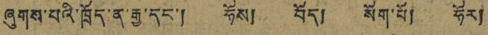ཞུགས་པའི་ཁྲོད་ན་རྒྱ་དང་། ཧོས། བོད། སོག་པོ། ཧོར།
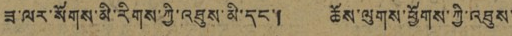ཟ་ལར་སོགས་མི་རིགས་ཀྱི་འཐུས་མི་དང་། ཆོས་ལུགས་ཕྱོགས་ཀྱི་འཐུས་
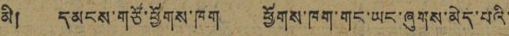མི། དམངས་གཙོ་ཕྱོགས་ཁག ཕྱོགས་ཁག་གང་ཡང་ཞུགས་མེད་པའི་
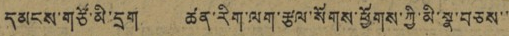དམངས་གཙོ་མི་དྲག ཚན་རིག་ལག་རྩལ་སོགས་ཕྱོགས་ཀྱི་མི་སྣ་བཅས་་་
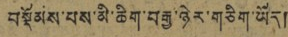བསྡོམས་པས་མི་ཆིག་བརྒྱ་ཉེར་གཅིག་ཡོད།
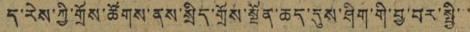ད་རེས་ཀྱི་གྲོས་ཚོགས་ནས་སྲིད་གྲོས་སྔོན་ཆད་དུས་ཤིག་གི་བྱ་བར་སྤྱི་་་
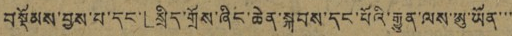བསྡོམས་བྱས་པ་དང་「སྲིད་གྲོས་ཞིང་ཆེན་སྐབས་དང་པོའི་རྒྱུན་ལས་ཨུ་ཡོན་་་
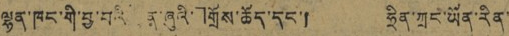ལྷན་ཁང་གི་བྱ་བའི་སྙན་ཞུའི་」གྲོས་ཆོད་དང་། ཧྲིན་ཀྲང་ཡོན་རིན་
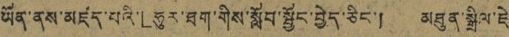ཡོན་ནས་མཛད་པའི་「ཧུར་ཐག་གིས་སློབ་སྦྱོང་བྱེད་ཅིང་། མཐུན་སྒྲིལ་ཇེ
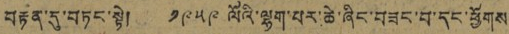བརྟན་དུ་བཏང་སྟེ། ༡༩༥༩ ལོའི་ལྷག་པར་ཆེ་ཞིང་བཟང་བ་དང་ཕྱོགས་
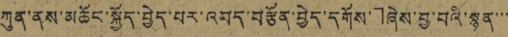ཀུན་ནས་མཆོང་སྐྱོད་བྱེད་པར་འབད་བརྩོན་བྱེད་དགོས་」ཞེས་བྱ་བའི་སྙན་་་
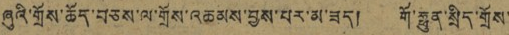ཞུའི་གྲོས་ཆོད་བཅས་ལ་གྲོས་འཆམས་བྱས་པར་མ་ཟད། གོ་ཧྥུན་སྲིད་གྲོས་
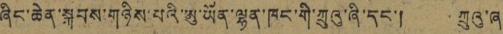ཞིང་ཆེན་སྐབས་གཉིས་པའི་ཨུ་ཡོན་ལྷན་ཁང་གི་ཀྲུའུ་ཞི་དང་། ཀྲུའུ་ཞ་
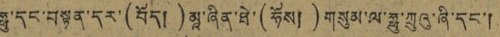ཧྥུ་དང་བསྟན་དར་(བོད།)མཱ་ཞིན་ཐེ་(ཧོས།)གསུམ་ལ་ཧྥུ་ཀྲུའུ་ཞི་དང་།
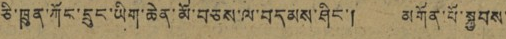ཅི་ཁྲུན་ཀོང་དྲུང་ཡིག་ཆེན་མོ་བཅས་ལ་བདམས་ཤིང་། མགོན་པོ་སྐྱབས་
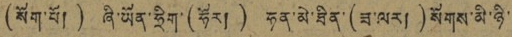(སོག་པོ།) ཞི་ཡོན་ཧྲིག་(ཧོར།) ཧན་མེ་ཐིན་(ཟ་ལར།)སོགས་མི་ཉི་
